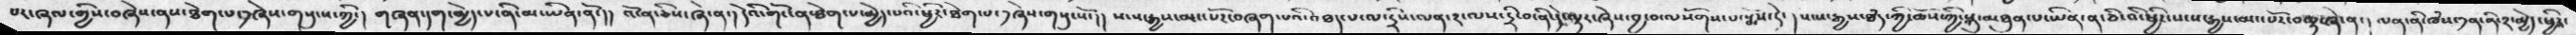པར་ཞལ་གྱིས་བཞེས་ནས་ཐེག་པ་༡ཞེས་གསུངས་ཀྱི་།  གཞན་དག་མྱེད་པ་ནི་མ་ཡིན་ནོ་།།  འོ་ན་ཅིས་ཞེ་ན་།  དེའི་གོང་ན་ཐེག་པ་མྱེད་པའི་ཕྱིར་ཐེག་པ་༡ཞེས་གསུངསོ་།།  སངས་རྒྱས་མང་པོར་བཞག་པའི་འཐད་པ་ལ་དྲིས་ལན་༢་ལས་དྲི་བ་ནི་དེ་ལྟར་ཞེས་བྱ་བ་ལསོགས་པ་སྨོས་དེ་།  སངས་རྒྱས་ཐཾད་ཀྱི་ཆོས་ཀྱི་སྐུ་མཐུན་པ་ཡིན་ན་ཅི་འི་སངས་རྒྱས་མང་པོར་བལྟ་ཞེ་ན་།  ལན་ནི་ཁཾས་༡ན་ནི་༢་མྱེད་ཕྱིར་
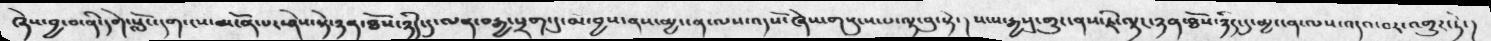ཞེས་བྱ་བ་ནི་དགེ་སློང་དག་ངས་མངོན་པར་ཤེས་སྟེ་ཉན་ཐོས་ཉིད་དུ་ལན་བརྒྱ་ཕྲག་དུ་མ་བྱས་ནས་མྱ་ངན་ལས་འདསོ་ཞེས་གསུངས་པ་ལྟ་བུ་སྟེ་།  སངས་རྒྱས་སུ་གྱུར་ནས་ཇི་ལྟར་ཉན་ཐོས་ཉིད་དུ་མྱ་ངན་ལས་འདའ་བར་འགྱུར་ཏེ་།
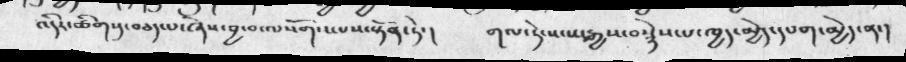འདིར་ཚིགསུ་བཅད་པ་ཞེས་བྱ་བ་ལསོགས་པས་སྟོན་ཏེ་།    གལ་ཏེ་སངས་རྒྱས་བསྙེས་པ་ཁྱད་མྱེད་དཔག་མྱེད་ན་།
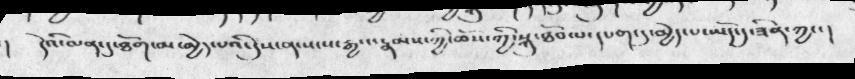།   དེའི་ལན་དུ་ཐོག་མ་མྱེད་པའི་དུས་ན་སངས་རྒྱས་རྣམས་ཀྱི་ཆོས་ཀྱི་སྐུ་ཐོབ་པ་དཔག་དུ་མྱེད་པ་ཡོད་དུ་ཟིན་ཀྱང་།
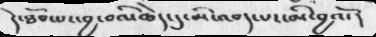དེ་ཐོབ་པར་བྱ་བའི་ཆེད་དུ་མི་འབད་པར་མི་བྱའོ་ །
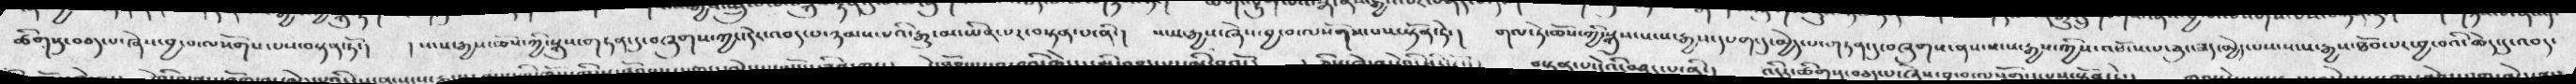ཚིགསུ་བཅད་པ་ཞེས་བྱ་བ་ལསོག་པས་བསྟན་ཏོ་།   ། སངས་རྒྱས་ཆོས་ཀྱི་སྐུས་གཏན་དུ་་བཞུགས་ཀྱང་དེར་འབད་པ་ཉམས་པའི་རྒྱུ་མ་ཡིན་པར་བསྟན་པ་ནི་།   སངས་རྒྱས་ཞེས་བྱ་བ་ལསོགས་པས་སྟོན་ཏེ་།  གལ་ཏེ་ཆོས་ཀྱི་སྐུས་སངས་རྒྱས་དཔག་དུ་མྱེད་མྱེད་པ་གཏན་དུ་བཞུགས་ནས་སངས་རྒྱས་ཀྱིས་འཕོངས་པ་ཅུང་ཟད་མྱེད་པས་སངས་རྒྱས་ཐོབ་པར་བྱ་བའི་ཆེད་དུ་འབད་
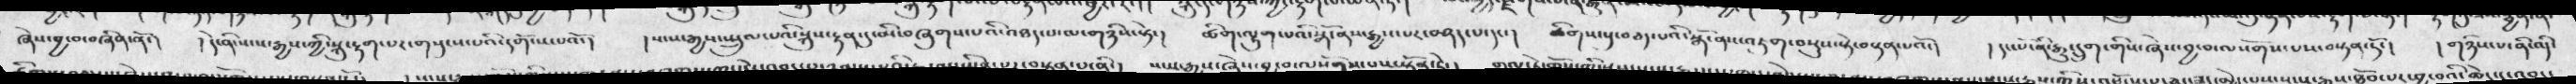ཞེས་བྱ་བ་བཞིན་ནོ་།   ། དེ་ནི་སངས་རྒྱས་ཀྱི་སྐུ་རྟག་པར་གསུངས་པའི་དགོངས་པའོ་།  ། སངས་རྒྱས་སྤྲུལ་པའི་སྐུས་རྟན་དུ་མི་བཞུགས་པའི་འཐད་པ་ལ་གཉིས་སྟེ་།  ཚིག་ལྷུག་པའི་སྒོ་ནས་རྒྱས་པར་བཤད་པ་དང་།  ཚིགས་སུ་བཅད་པའི་སྒོ་ནས་འཇུག་བསྡུས་སྟེ་བསྟན་པའོ་།  ། དང་པོ་ནི་རྒྱུ་དྲུག་གིས་ཞེས་བྱ་བ་ལསོགས་པས་བསྟན་ཏོ་།  ། གཉིས་པ་ནི་
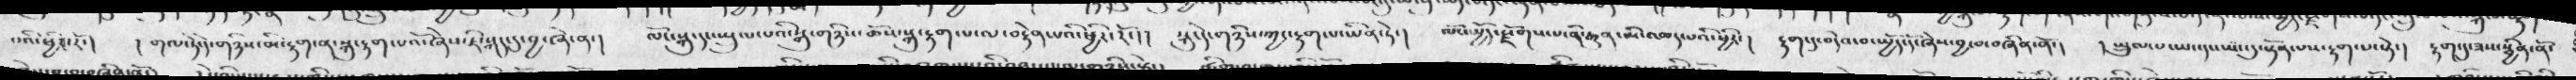པའི་ཕྱིར་རོ་།  ། གལ་ཏེ་དེ་གཉིས་མི་རྟག་ན་སྐུ་རྟག་པའོ་ཞེས་ཇི་སྐད་དུ་བྱ་ཞེ་ན་།  ལོང་སྐུ་དང་སྤྲུལ་པའི་སྐུ་གཉིས་ཆོས་སྐུ་རྟག་པ་ལ་བརྟེན་པའི་ཕྱིར་རོ་།།  སྐུ་དེ་གཉིས་ཀྱང་རྟག་པ་ཡིན་ཏེ་།   ལོང་སྤྱོད་རྫོགས་པ་ནི་རྒྱུན་མི་འཆད་པའི་ཕྱིར་།  རྟག་དུ་བདེའ་བ་སྤྱོད་དོ་ཞེས་བྱ་བ་བཞིན་ནོ་།   ། སྤྲུལ་པ་ཡང་དང་ཡང་དུ་སྟོན་པས་རྟག་པ་སྟེ་།   རྟག་དུ་ཟས་སྦྱིན་ནོ་
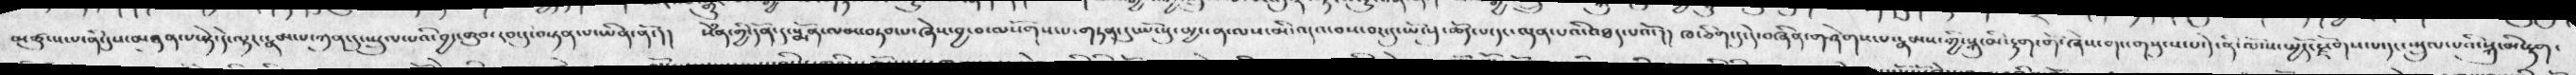མཚུངས་པ་ནི་དུས་མཐུན་པ་སྟེ་དེ་ལྟར་རྣམ་པ་ཀུན་དུ་སྤྲུལ་པའི་བྱང་ཆུབ་རབ་དུ་བསྟན་པ་ཡིན་ནོ་།  སེཾན་གྱི་དོན་དུ་སྨོན་ལམ་བཏབ་པ་ཞེས་བྱ་བ་ལསོགས་་གཏན་དུ་ཡོངས་སུ་མྱ་ངན་ལས་མི་འདའ་བས་བར་དུ་ཡོངསུ་ཆོད་པ་དང་ལྡན་པའི་འཐད་པའོ་།།   ཁ་ཅིག་དུ་དེ་བཞིན་གཤེགས་པའི་རྣམས་ཀྱི་སྐུ་མི་རྟག་གི་ཞེས་གང་གསུངས་པ་དེ་ནི་ལོངས་སྤྱོད་རྫོགས་པ་དང་སྤྲུལ་པའི་སྐུ་མ་རྟག་
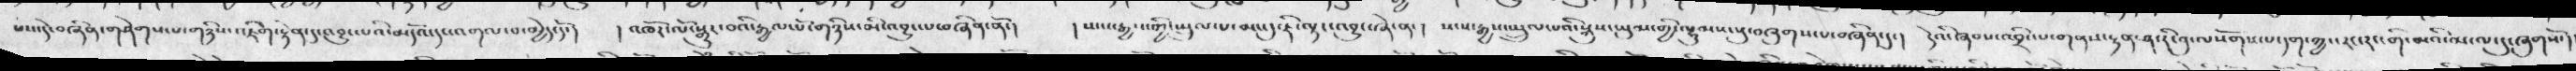པས་དེ་བཞིན་གཤེགས་པ་གཉིས་འཇིག་རྟེན་དུ་འབྱུང་པའི་མདོའ་དང་འགལ་བ་མྱེད་དོ་།  ། འཁོར་ལོ་སྒྱུར་བའི་རྒྱལ་པོ་གཉིས་མི་འབྱུང་པ་བཞིན་ནོ་།  ། སངས་རྒྱས་གྱི་སྤྲུལ་པ་མང་དུ་ཇི་ལྟར་འབྱུང་ཞེ་ན་།  སངས་རྒྱས་སྤྲུལ་པའི་སྐུས་ཡུམ་གྱི་ལྷུམས་སུ་བཞུགས་པ་བཞིན་དུ་།   དེའི་ཞབས་འབྲིང་པ་གནས་རྟན་ཤ་རི་བུ་ལསོགས་པ་དག་ཀྱང་རང་རང་གི་མའི་ལ་དུ་ཞུགསོ་།
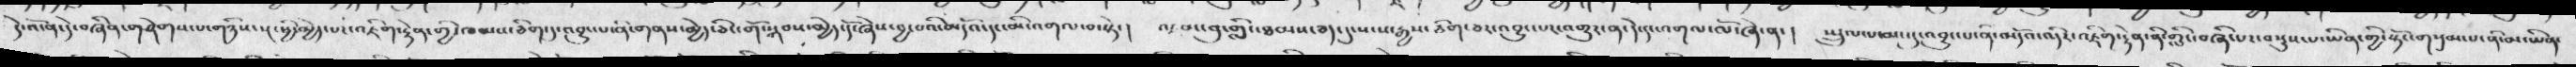དེ་འོ་ན་དེ་བཞིན་གཤེགས་པ་གཉིས་སྔ་ཕྱི་མྱེད་པར་འཇིག་རྟེན་གྱི་ཁམས་ཅིག་དུ་འབྱུང་པ་ནི་གནས་མྱེད་ཅིང་གོ་སྐབས་མྱེད་དོ་ཞེས་བྱ་བའི་མདོའ་དང་མི་འགལ་བ་སྟེ་།  འཛམ་བུ་གླིང་ཐམས་ཅད་དུ་སངས་རྒྱས་ཅིག་ཅར་འབྱུང་པར་འགྱུར་ན་དེ་དང་འགལ་ལོ་ཞེ་ན་།   སྤྲུལ་པ་མང་དུ་འབྱུང་པ་ནི་མདོ་འདིར་འཇིག་རྟེན་ནི་གླིང་བཞི་པར་བསྡུས་པ་ཡིན་གྱི་སྟོང་གསུམ་ནི་མ་ཡིན་
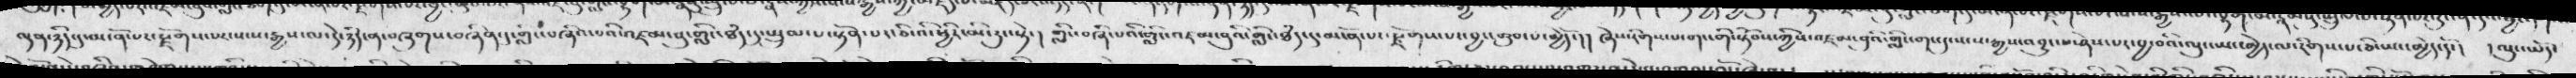ལྡན་ཉིད་དུ་མངོན་པར་རྫོགས་པར་སངས་རྒྱས་ལ་དེ་ཉིད་ན་བཞུགས་བཞིན་དུ་གླིང་བཞིའ་པའི་འཛམ་བུ་གླིང་ཐཾད་དུ་སྤྲུལ་པ་སྟོན་པར་ཅི་འི་ཕྱིར་མི་རུང་སྟེ་།  གླིང་བཞི་པའི་གླིང་འཛམ་བུའི་གླིང་ཐཾད་དུ་མངོན་པར་རྫོགས་པར་བྱང་ཆུབ་པ་མྱེདོ་།།  ཞེས་རིགས་པ་གང་གི་སྟོབས་ཀྱིས་འཛམ་བུའི་གླིང་གང་དུ་སངས་རྒྱས་འབྱུང་པ་ཤེས་པར་བྱ་བའི་ལུང་ཡང་མྱེད་ལ་རིགསཔ་པ་ཅི་ཡང་མྱེད་དོ་།  །ལུང་ཡོད་
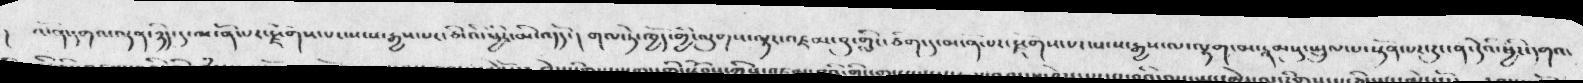། འོ་ན་དགའ་ལྡན་ཉིད་དུ་མངོན་པར་རྫོགས་པར་སངས་རྒྱས་པར་ཅི་འི་ཕྱིར་མི་འདོད་།   གལ་ཏེ་ཁྱོད་གྱི་ལུགས་ལྟར་འཛམ་བུ་གླིང་ཅིག་དུ་མངོན་པར་རྫོགས་པར་སངས་རྒྱས་ལ་ལྷག་མ་རྣམསུ་སྤྲུལ་པ་སྟོན་པར་རུང་ན་དེའི་ཕྱིར་དགའ་
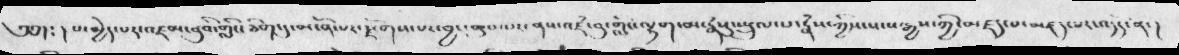༄༅།༴    ། པ་མྱེད་པར་འཇམ་བུའི་གླིང་ཅིག་དུ་མངོན་པར་རྗོགས་པར་བྱང་ཆུབ་པར་ནས་འཛཾ་བུ་གླིང་ལྷག་མ་རྣཾསུ་ཡྲུལ་པ་རྣཾས་ཀྱིས་སངས་རྒྱས་ཀྱི་མཛད་པ་མཛད་པར་འདོད་ན་།
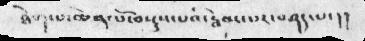ཐེག་པ་ཆེན་པོ་བསྡུས་པའི་རྣམ་པར་བཤད་པ་ །།
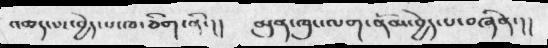འཆད་པར་བྱེད་པ་ཁ་ཅིག་ནི་།།   མུན་ཁུང་ལག་ནོམ་བྱེད་པ་བཞིན་།།
